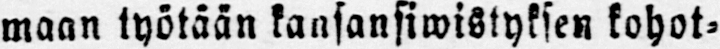maan työtään kansansiwistyksen kohot-
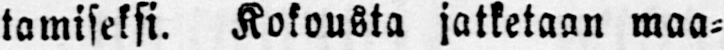tamiseksi. Kokousta jatketaan maa-
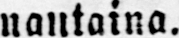nantaina.
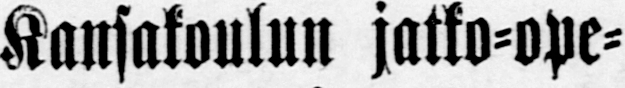Kansakoulun jatko-ope-
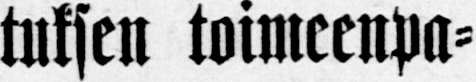tuksen toimeenpa-
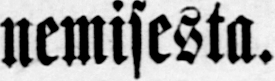nemisesta.
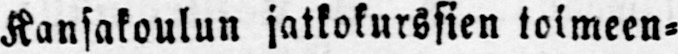Kansakoulun jatkokurssien toimeen-
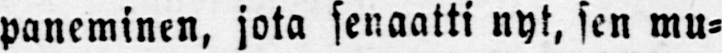paneminen, jota senaatti nyt, sen mu-
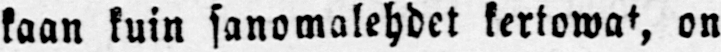kaan kuin sanomalehdet kertowat, on
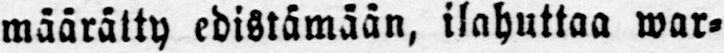määrätty edistämään, ilahuttaa war-
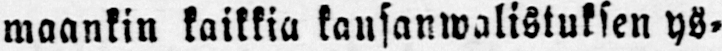maankin kaikkia kansanwalistuksen ys-
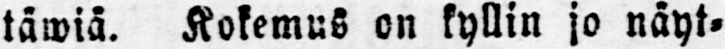täwiä. Kokemus on kyllin jo näyt-
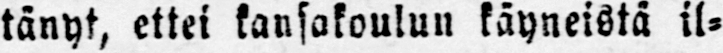tänyt, ettei kansakoulun käyneistä il-
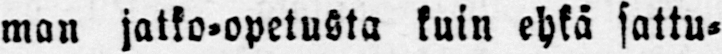man jatko-opetusta kuin ehkä sattu-
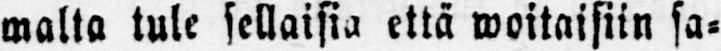malta tule sellaisia että woitaisiin sa-
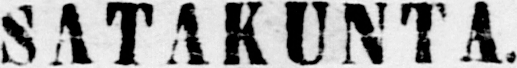SATAKUNTA.
